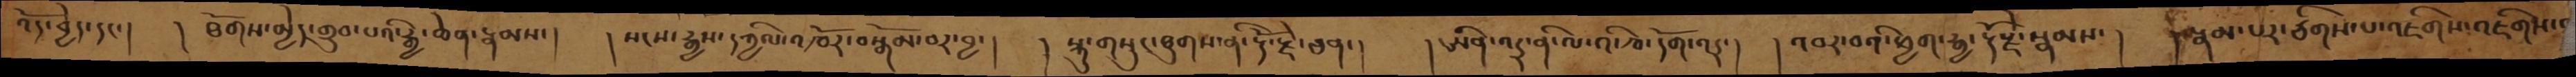འོད་བྱེད་དང་།  ཐོགས་མྱེད་གྲུབ་པའི་རྒྱ་ཆེན་རྣམས་།  ། སངས་རྒྱས་དཀྱིལ་འཁོར་བསྒོམ་བར་བྱ་།  ། སྐུ་གསུང་ཐུགས་ནི་རྡོ་རྗེ་ཅན་།  ། ཨིན་འདྲ་ནི་ལ་འི་ཁ་དོག་འདྲ་།  ། འབར་བའི་ཕྱག་རྒྱ་རྡོ་རྗེ་སྣམས་།  །རྣམ་པར་ཙིགས་པ་འཇིགས་འཇིགས་
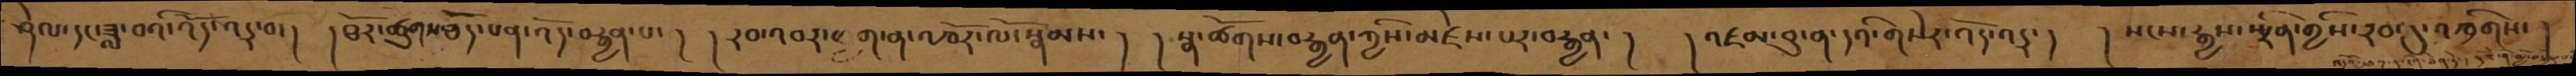ཤེལ་དང་ཟླ་བའི་འོད་འདྲ་བ་།  །ཐོར་ཚུགས་ཅོད་པན་འོད་བརྒྱན་པ་།  །རབ་འབར་ཕྱག་ན་འཁོར་ལོ་སྣམས་།  སྣ་ཚོགས་བརྒྱན་ཀྱིས་མཛེས་པར་བརྒྱན་།  །འཛམ་བུ་ན་དའི་གསེར་འོད་འདྲ་།  །སངས་རྒྱས་སྤྲིན་གྱིས་རབ་དུ་འཁྲིགས་།
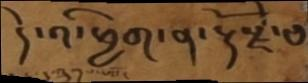དེ་འི་ཕྱག་ན་རྡོ་རྗེ་ཅ
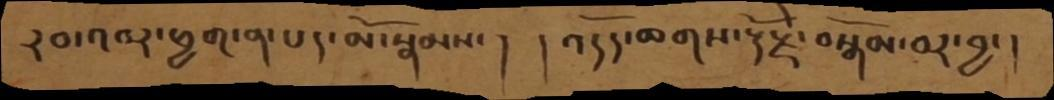རབ་འབར་ཕྱག་ན་པད་མོ་སྣམས་།  །འདོད་ཆགས་རྡོ་རྗེ་བསྒོམ་བར་བྱ་།
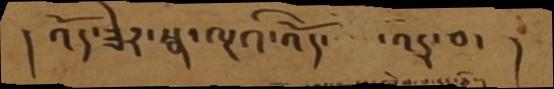།འོད་ཟེར་སྣ་ལྔའི་འོད་འདྲ་བ་།
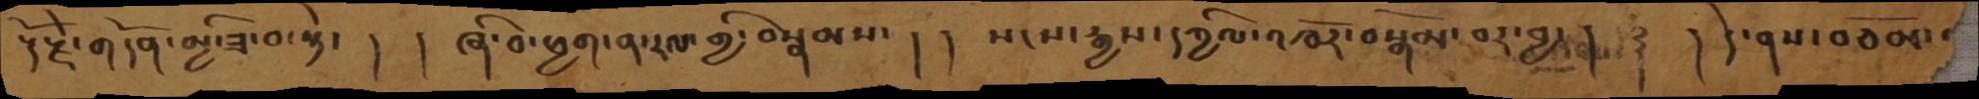རྡོ་རྗེ་གདོན་མྱི་ཟ་བ་སྟེ་ །  ། ཞི་བ་ཕྱག་ན་རལ་གྱི་བསྣམས་ །  །  སངས་རྒྱས་དཀྱིལ་འཁོར་བསྒོམ་བར་བྱ་།   ࿑ ། དེ་ནས་བཅོམ་
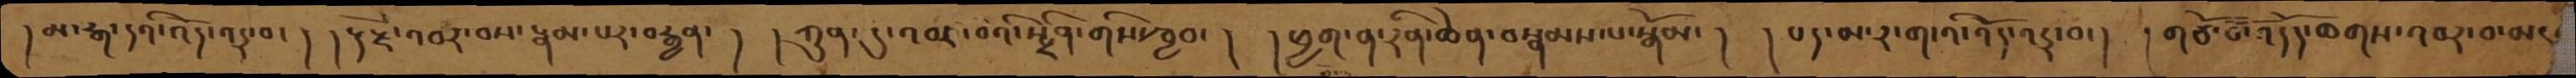།མ་རྒ་དའི་འོད་འདྲ་བ་།  །རྡོ་རྗེ་འབར་བས་རྣམ་པར་བརྒྱན་།   །ཀུན་དུ་འབར་བའི་སྤྲིན་གིས་ཁྱབ་།   །ཕྱག་ན་རིན་ཆེན་བསྣམས་ལ་སྒོམ་།   །པད་མ་ར་ག་འི་འོད་འདྲ་བ་།   །གཙོ་བོ་འདོད་ཆགས་འབར་བ་མར
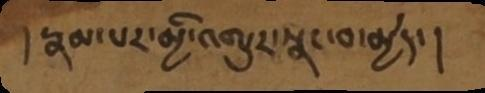། རྣམ་པར་མྱི་འགྱུར་སྣང་བ་མྱེད་།
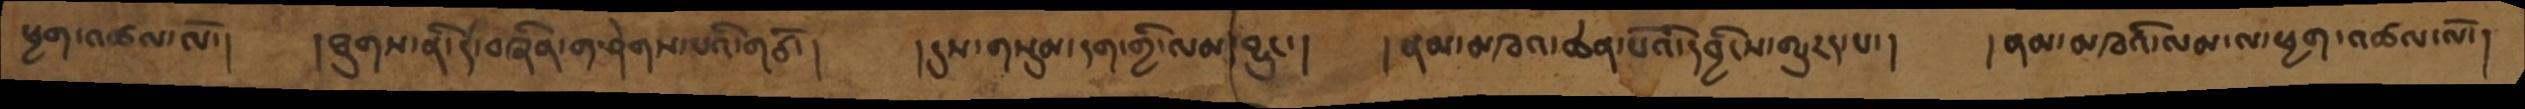ཕྱག་འཚལ་ལོ་།    །ཐུགས་ནི་དེ་བཞིན་གཤེགས་པའི་གཙོ་།   །དུས་གསུམ་དག་གྱི་ལམ་བྱུང་།  ། ནམ་མཁའ་ཆེན་པོའི་དབྱིངས་གྱུརད་པ་།  ། ནམ་མཁའི་ལམ་ལ་ཕྱག་འཚལ་ལོ་།
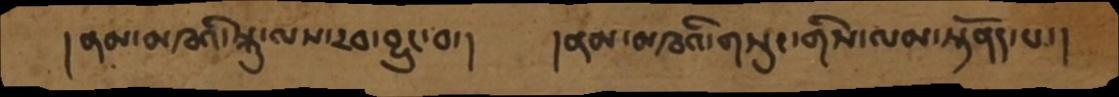།ནམ་མཁའི་སྐུ་ལས་རབ་བྱུང་བ་།  །ནམ་མཁའི་གསུང་གིས་ལམ་སྟོནད་པ་།
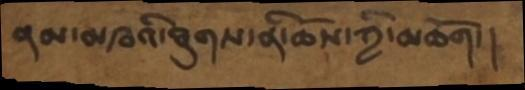ནམ་མཁའི་ཐུགས་ནི་ཆོས་ཀྱི་མཆོག་།
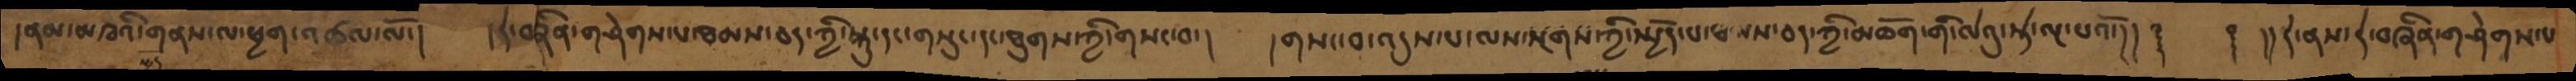།ནམ་མཁའི་གནས་ལ་ཕྱག་འཚལ་ལོ་།   །དེ་བཞིན་གཤེགས་པ་ཐམས་ཅད་ཀྱི་སྐུ་དང་གསུང་དང་ཐུགས་ཀྱི་གསང་བ་།   །གསང་བ་འདུས་པ་ལས་སྔགས་ཀྱི་སྤྱོད་པ་ཐམས་ཅད་ཀྱི་མཆོག་གི་ལེའུ་སྟེ་ལྔ་པའོ་།། ༈    ༈ །།དེ་ནས་དེ་བཞིན་གཤེགས་པ
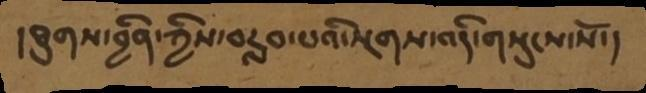།ཐུགས་བྱིན་ཀྱིས་བརླབ་པའི་སྔགས་འདི་གསུངས་སོ་།
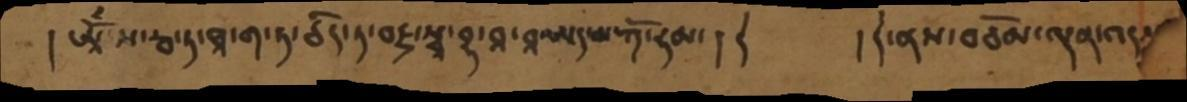། ཨཱོཾ་ས་རྦ་ཏ་ཐཱ་ག་ཏ་ཙིར་ཏ་བཛྲ་སྭཱ་བྷ་བཱ་བཱཨད་མ་ཀོ་ཧམ་། །    ། དེ་ནས་བཅོམ་ལྡན་འདས
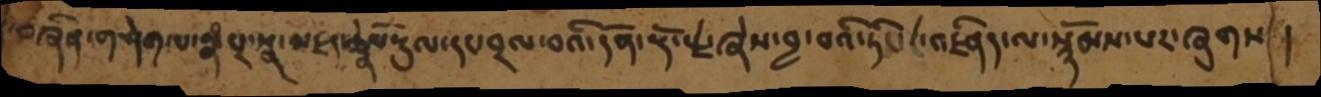བཞིན་གཤེག་པ་རྣཾ་པར་སྣང་མཛད་ཆེན་པོ་སྡུལ་དང་བྲལ་བའི་དོན་རྡོ་རྗེ་ཞེས་བྱ་བའི་ཏིང་ངེ་འཛིནད་ལ་སྙོམས་པར་བཞུགས།
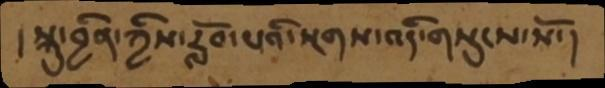། སྐུ་བྱིན་ཀྱིས་རློབ་པའི་སྔགས་འདི་གསུངས་སོ་།
